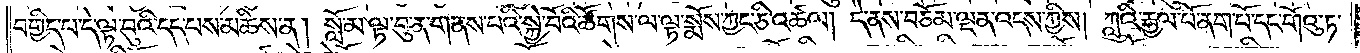བགྱིད་པ་དེ་ལྟ་བུའི་དད་པས་མཆིས་ན། སློ་མ་ལྟ་བུ་ན་གནས་པའི་སྐྱེ་བོའི་ཚོགས་ལ་ལྟ་སྨོས་ཀྱང་ཅི་འཚལ། དེ་ནས་བཅོམ་ལྡན་འདས་ཀྱིས། ཀླུའི་རྒྱལ་པོ་ནག་པོ་དང་གོའུ་ཏ་
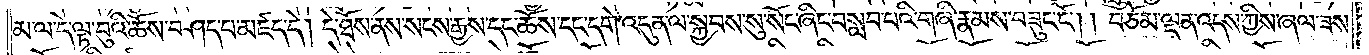མ་ལ་དེ་ལྟ་བུའི་ཆོས་བཤད་པ་མཛད་དེ། དེ་ཐོས་ནས་སངས་རྒྱས་དང་ཆོས་དང་དགེ་འདུན་ལ་སྐྱབས་སུ་སོང་ཞིང་བསླབ་པའི་གཞི་རྣམས་བཟུང་ངོ༌། །བཅོམ་ལྡན་འདས་ཀྱིས་ཞལ་ཟས་
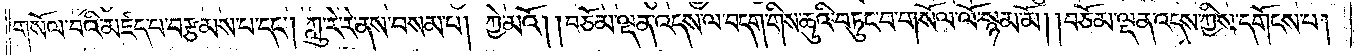གསོལ་བའི་མཛད་པ་བརྩམས་པ་དང༌། ཀླུ་རེ་རེ་ནས་བསམ་པ། ཀྱེ་མའོ། །བཅོམ་ལྡན་འདས་ལ་བདག་གིས་ཆུའི་བཏུང་བ་གསོལ་ལོ་སྙམ་མོ། །བཅོམ་ལྡན་འདས་ཀྱིས་དགོངས་པ།
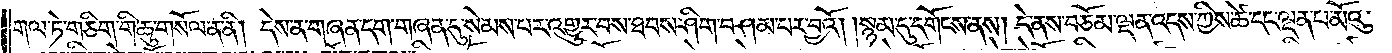གལ་ཏེ་གཅིག་གི་ཆུ་གསོལ་ན་ནི། དེས་ན་གཞན་དག་གཞན་དུ་སེམས་པར་འགྱུར་བས་ཐབས་ཤིག་བཤམ་པར་བྱའོ། །སྙམ་དུ་དགོངས་ནས། དེ་ནས་བཅོམ་ལྡན་འདས་ཀྱིས་ཚེ་དང་ལྡན་པ་མོའུ་
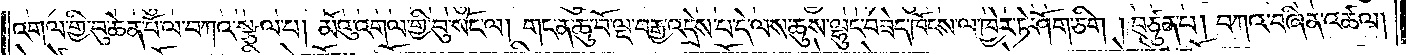འགལ་གྱི་བུ་ཆེན་པོ་ལ་བཀའ་སྩལ་པ། མོའུ་འགལ་གྱི་བུ་སོང་ལ། གང་ན་ཆུ་བོ་ལྔ་བརྒྱ་འདྲེས་པ་དེ་ལས་ཆུས་ལྷུང་བཟེད་ཁོངས་ལ་ཁྱེར་ཏེ་ཤོག་ཅིག །བཙུན་པ། བཀའ་བཞིན་འཚལ།
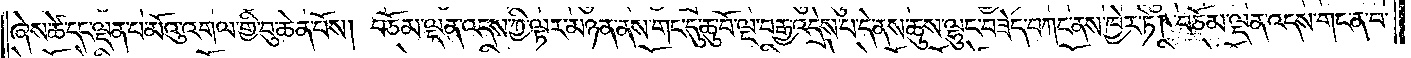ཞེས་ཚེ་དང་ལྡན་པ་མོའུ་འགལ་གྱི་བུ་ཆེན་པོས། བཅོམ་ལྡན་འདས་ཀྱི་ལྟར་མཉན་ནས་གང་དུ་ཆུ་བོ་ལྔ་བརྒྱ་འདྲེས་པ་དེ་ནས་ཅུས་ལྷུང་བཟེད་བཀང་ནས་ཁྱེར་ཏེ། བཅོམ་ལྡན་འདས་གང་ན་བ་
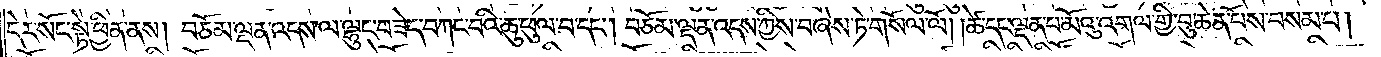དེར་སོང་སྟེ་ཕྱིན་ནས། བཅོམ་ལྡན་འདས་ལ་ལྷུང་བཟེད་བཀང་བའི་ཆུ་ཕུལ་བ་དང༌། བཅོམ་ལྡན་འདས་ཀྱིས་བཞེས་ཏེ་གསོལ་ལོ། །ཚེ་དང་ལྡན་པ་མོའུ་འགལ་གྱི་བུ་ཆེན་པོས་བསམ་པ།
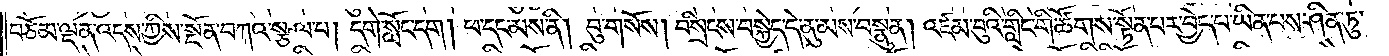བཅོམ་ལྡན་འདས་ཀྱིས་སྔོན་བཀའ་སྩལ་པ། དགེ་སློང་དག། ཕ་དང་མས་ནི། བུ་གསོས། བསྲིངས་བསྐྱེད་དེ་ནུ་མས་བསྣུན། འཛམ་བུའི་གླིང་གི་ཚོགས་སྟོན་པར་བྱེད་པ་ཡིན་པས་ཤིན་ཏུ་
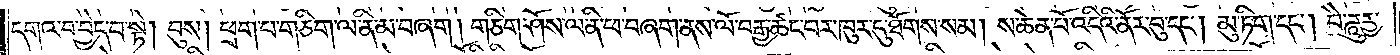དགའ་བ་བྱེད་པ་སྟེ། བུས། ཕྲག་པ་གཅིག་ལ་ནི་མ་བཞག། གཅིག་ཤོས་ལ་ནི་ཕ་བཞག་ནས་ལོ་བརྒྱ་ཚང་བར་ཁུར་དུ་ཐོགས་སམ། ས་ཆེན་པོ་འདིའི་ནོར་བུ་དང༌། མུ་ཏིག་དང༌། བཻཌཱུརྱ་
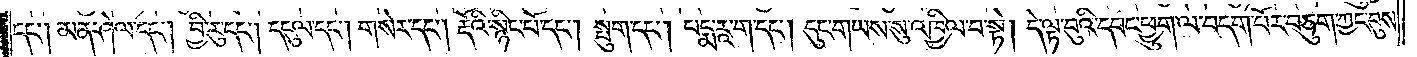དང༌། མན་ཤེལ་དང༌། བྱི་རུ་དང༌། དངུལ་དང༌། གསེར་དང༌། རྡོའི་སྙིང་པོ་དང༌། སྤུག་དང༌། པདྨ་རཱ་ག་དང༌། དུང་གཡས་སུ་འཁྱིལ་བ་སྟེ། དེ་ལྟ་བུའི་དབང་ཕྱུག་ལ་བདག་པོར་བཅུག་ཀྱང་བུས་
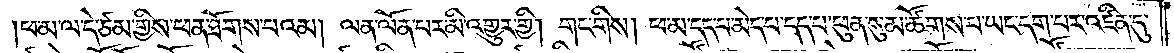།ཕ་མ་ལ་དེ་ཙམ་གྱིས་ཕན་ཐོགས་པའམ། ལན་ལོན་པར་མི་འགྱུར་གྱི། གང་གིས། ཕ་མ་དད་པ་མེད་པ་དད་པ་ཕུན་སུམ་ཚོགས་པ་ཡང་དག་པར་འཛིན་དུ་
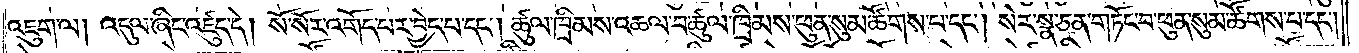འཇུག་ལ། འདུལ་ཞིང་འཛུད་དེ། སོ་སོར་འགོད་པར་བྱེད་པ་དང༌། ཚུལ་ཁྲིམས་འཆལ་བ་ཚུལ་ཁྲིམས་ཕུན་སུམ་ཚོགས་པ་དང༌། སེར་སྣ་ཅན་གཏོང་བ་ཕུན་སུམ་ཚོགས་པ་དང༌།
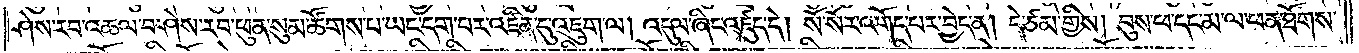ཤེས་རབ་འཆལ་བ་ཤེས་རབ་ཕུན་སུམ་ཚོགས་པ་ཡང་དག་པར་འཛིན་དུ་འཇུག་ལ། འདུལ་ཞིང་འཛུད་དེ། སོ་སོར་འགོད་པར་བྱེད་ན། དེ་ཙམ་གྱིས། བུས་ཕ་དང་མ་ལ་ཕན་ཐོགས་
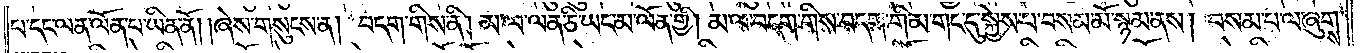པ་དང་ལན་ལོན་པ་ཡིན་ནོ། །ཞེས་གསུངས་ན། བདག་གིས་ནི། མ་ལ་ལན་ཅི་ཡང་མ་ལོན་གྱི། མ་ལ་བདག་གིས་བདག་གི་མ་གང་དུ་སྐྱེས་པ་བསམ་མོ་སྙམ་ནས། བསམ་པ་ལ་ཞུགས་
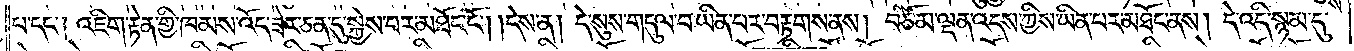པ་དང༌། འཇིག་རྟེན་གྱི་ཁམས་འོད་ཟེར་ཅན་དུ་སྐྱེས་པར་མཐོང་ངོ༌། །དེས་ན། དེ་སུས་གདུལ་བ་ཡིན་པར་བརྟགས་ནས། བཅོམ་ལྡན་འདས་ཀྱིས་ཡིན་པར་མཐོང་ནས། དེ་འདི་སྙམ་དུ་
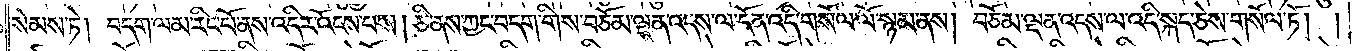སེམས་ཏེ། བདག་ལམ་རིང་པོ་ནས་འདིར་འོངས་པས། ཅི་ནས་ཀྱང་བདག་གིས་བཅོམ་ལྡན་འདས་ལ་དོན་འདི་གསོལ་ལོ་སྙམ་ནས། བཅོམ་ལྡན་འདས་ལ་འདི་སྐད་ཅེས་གསོལ་ཏོ། །
